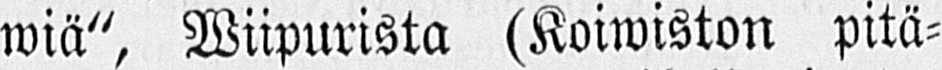wiä", Wiipurista (Koiwiston pitä-
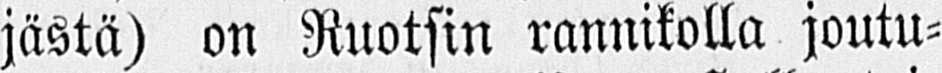jästä) on Ruotsin rannikolla joutu-
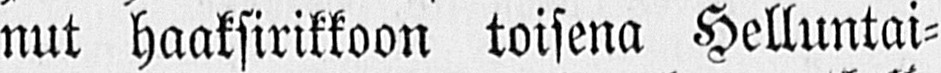nut haaksirikkoon toisena Helluntai-
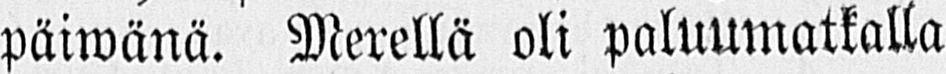päiwänä. Merellä oli paluumatkalla
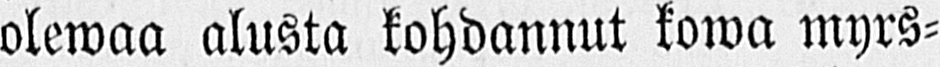olewaa alusta kohdannut korva myrs-
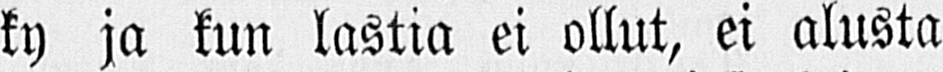ky ja kun lastia ei ollut, ei alusta
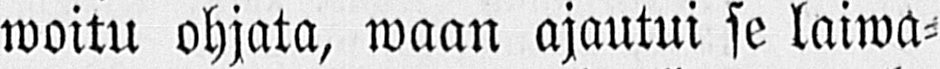woitu ohjata, waan ajautui se laiwa-
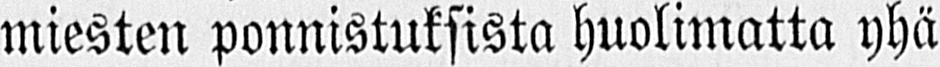miesten ponnistuksista huolimatta yhä
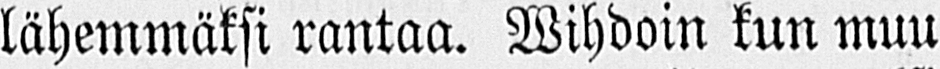lähemmäksi rantaa. Wihdoin kun muu
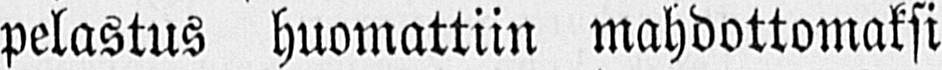pelastus huomattiin mahdottomaksi
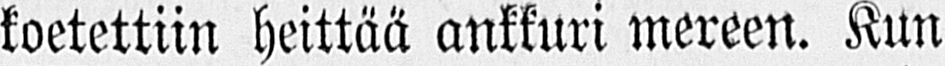koetettiin heittää ankkuri mereen. Kun
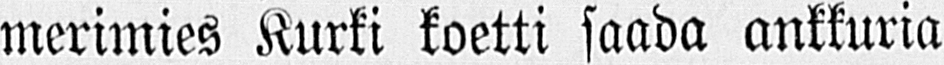merimies Kurki koetti saada ankkuria
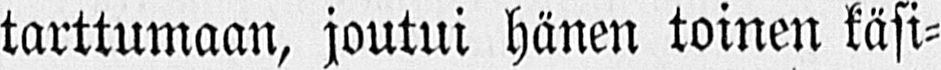tarttumaan, joutui hänen toinen käsi-
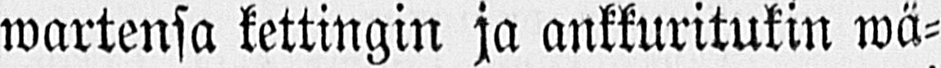wartensa kettingin ja ankkuritukin wä-
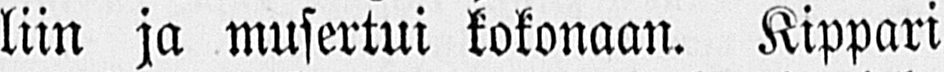liin ja musertui kokonaan. Kippari
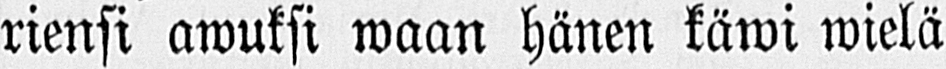riensi awuksi waan hänen käwi wielä
